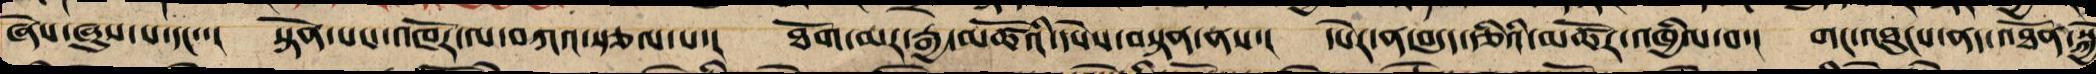ཞེས་ཞུས་པ་དང་་། སྟོན་པས་འཁོར་ལ་བཀའ་སྩལ་པ་། ཐོག་མར་རྒྱ་མཚོའི་དཔེས་བསྟན་ནས་། དཔེར་ན་བདུད་རྩིའི་མཚོར་འཁྱིལ་པས་། གང་འཐུངས་ནད་འཐོན་སྐྱེ
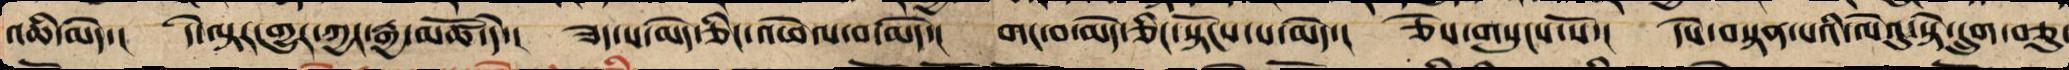འཆི་མེད་། དེ་ལྟར་གྱུར་ཀྱང་རྒྱ་མཚོ་དེ་། ཟད་པ་མེད་ཅིང་འཕེལ་བ་མེད་། གང་བ་མེད་ཅིང་སྟོངས་པ་མེད་། ཅེས་གསུངས་སོ་། དཔེ་བསྟན་པའི་ལེའུ་སྟེ་དྲུག་ཅུ་
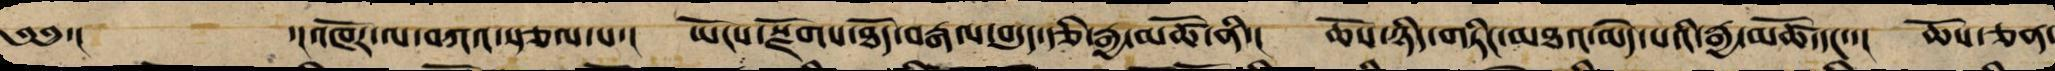༄༅་། ་།འཁོར་ལ་བཀའ་སྩལ་པ་། ཡོངས་སྫོགས་ཐོད་བརྒལ་བདུད་རྩི་རྒྱ་མཚོ་ནི་། ཆོས་ཉིད་གཏིང་མཐའ་མེད་པའི་རྒྱ་མཚོ་དང་་། ཆོས་ཅན་
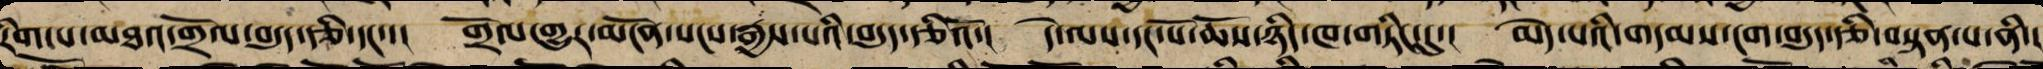རིག་པ་མཐའ་གྲོལ་བདུད་རྩི་དང་་། གྲོལ་གྱུར་མངོན་སངས་རྒྱས་པའི་བདུད་རྩིའོ་། དེ་ལས་དང་པོ་ཆོས་ཉིད་ཁ་གཏིང་དུ་། མེད་པའི་གདམས་ངག་བདུད་རྩི་བསྟན་པ་ནི་།
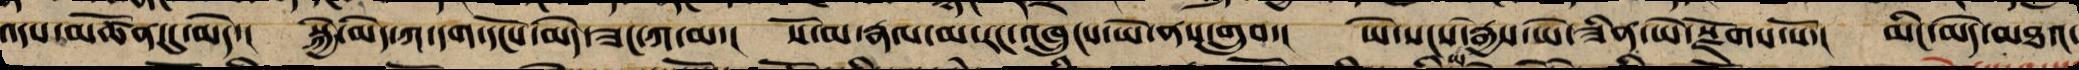འདས་མཚོན་དུ་མེད་། སྐྱེ་མེད་ཀ་དག་དངོས་མེད་ཟང་ཀ་མ་། སོ་མ་རྣལ་མ་རང་འཁྲུངས་ཡེ་ནས་གྲུབ་། ཡེ་སངས་ཡེ་རྒྱས་ཡེ་ཟིན་ཡེ་སྫོགས་སོ་། མིང་མེད་མཐའ་
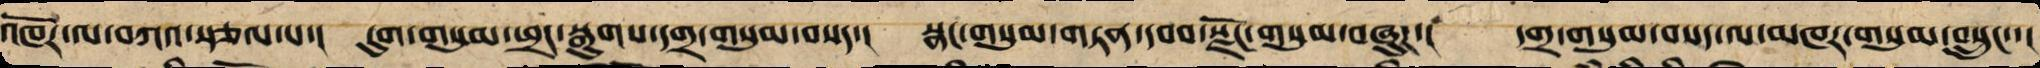འཁོར་ལ་བཀའ་སྩལ་པ་། དུག་གསུམ་ཕྲད་སྒུགས་དགྲ་གསུམ་བསད་། སྣང་གསུམ་གཏན་དབབ་སྫོང་གསུམ་བཞུཌ་། དགྲ་གསུམ་བསད་ལ་མཁར་གསུམ་བསྲུང་་།
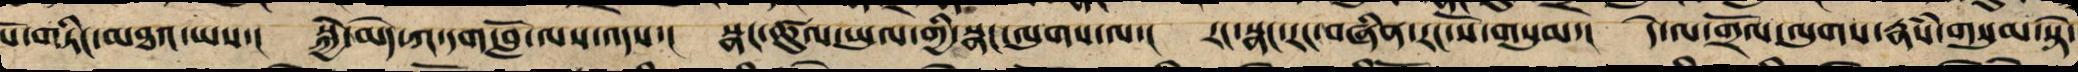པོ་གཏིང་མཐའ་ཡས་། སྐྱེ་མེད་ཀ་དག་བློ་ལས་འདས་། སྣང་ཚུལ་ཡུལ་གྱི་སྣང་ལུགས་ལ་། རང་སྣང་རང་བཞིན་རང་སོ་གསུམ་། དེ་ལ་གྲོལ་ལུགས་རྣཾས་གསུམ་སྟེ་
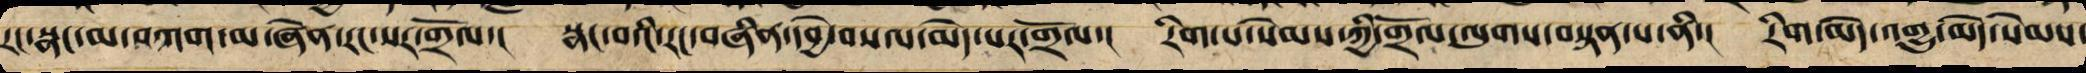རང་སྣང་མ་བཀག་མ་ཞེན་རང་སར་གྲོལ་། སྣང་བའི་རང་བཞིན་དབྱེ་བསལ་མེད་པར་གྲོལ་། རིག་པ་སེམས་ཀྱི་གྲོལ་ལུགས་བསྟན་པ་ནི་། རིག་མེད་འགྱུ་མེད་སེམས་
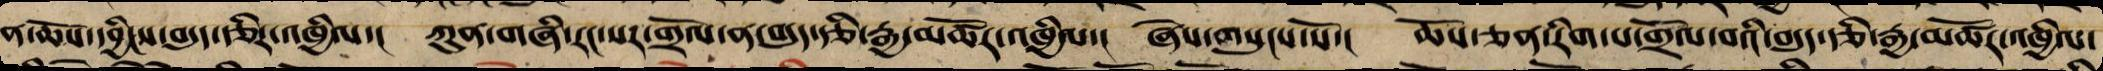ན་ཆོས་དབྱིངས་བདུད་རྩིར་འཁྱིལ་། ཀུན་གཞི་རང་སར་གྲོལ་ན་བདུད་རྩི་རྒྱ་མཚོར་འཁྱིལ་། ཞེས་གསུངས་སོ་། ཆོས་ཅན་རིག་པ་གྲོལ་བའི་བདུད་རྩི་རྒྱ་མཚོར་འཁྱིལ་
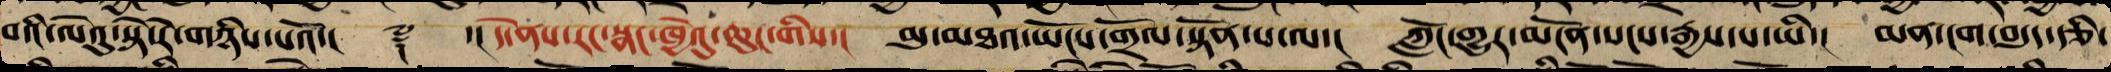པའི་ལེའུ་སྟེ་རེ་གཉིས་པའོ་།། ༈ ་།། དེ་ནས་རང་སྣང་ཁྱེའུ་ཆུང་གིས་། མུ་མཐའ་ཡོངས་གྲོལ་སྟོན་པ་ལ་། ཀློང་གྱུར་མངོན་སངས་རྒྱས་པ་ཡི་། མན་ངག་བདུད་རྩི་
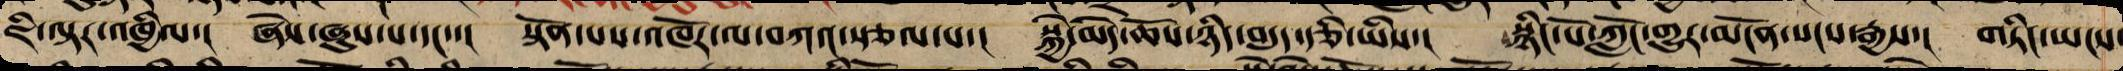ཇི་ལྟར་འཁྱིལ་། ཞེས་ཞུས་པ་དང་་། སྟོན་པས་འཁོར་ལ་བཀའ་སྩལ་པ་། སྐྱེ་མེད་ཆོས་ཉིད་བདུད་རྩི་ཡིས་། སྙིང་པོ་ཀློང་གྱུར་མངོན་སངས་རྒྱས་། གཏིང་ཡངས་
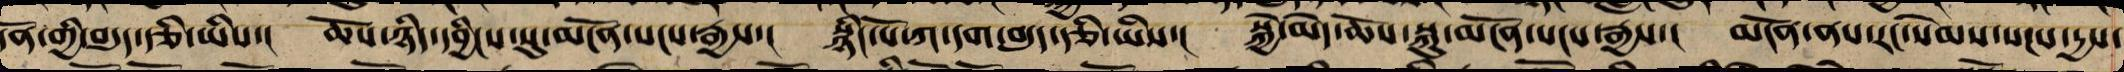དོན་གྱི་བདུད་རྩི་ཡིས་། ཆོས་ཉིད་དབྱིངས་སུ་མངོན་སངས་རྒྱས་། སྙིང་པོ་ཀ་དག་བདུད་རྩི་ཡིས་། སྐྱེ་མེད་ཆོས་སྐུར་མངོན་སངས་རྒྱས་། སྔོན་ནས་རང་སེམས་སངས་དྱས་
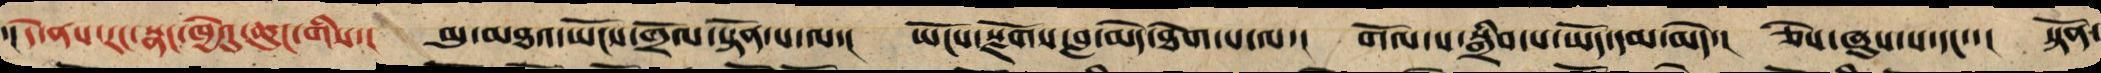་།།དེ་ནས་རང་སྣང་ཁྱེའུ་ཆུང་གིས་། མུ་མཐའ་ཡོངས་གྲོལ་སྟོན་པ་ལ་། ཡོངས་སྫོགས་བླ་མེད་ཐེག་པ་ལ་། གོལ་ས་སྒྲིབ་པ་ཡོད་དམ་མེད་། ཅེས་ཞུས་པ་དང་་། སྟོན་
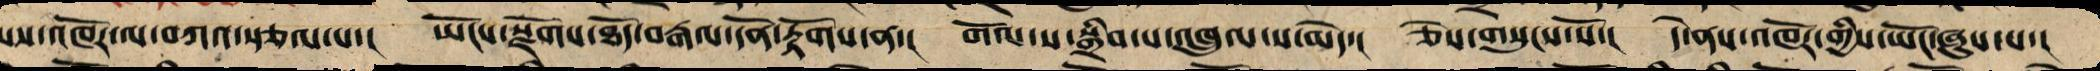པས་འཁོར་ལ་བཀའ་སྩལ་པ་། ཡོངས་སྫོགས་ཐོད་བརྒལ་དོན་རྟོགས་ན་། གོལ་ས་སྒྲིབ་པ་འཁྲུལ་ས་མེད་། ཅེས་གསུངས་སོ་། དེ་ནས་འཁོར་གྱིས་ཡང་ཞུས་པ་།
